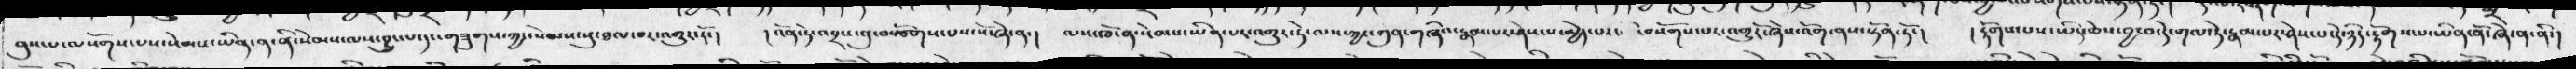བུས་པ་ལསོགས་པས་སེམས་ཡིན་ན་ནི་སེམས་ལས་བྱུང་པ་དང་གཟུགས་ཀྱང་སེམས་སུ་ཐལ་བར་འགྱུར་རོ་།  ། འོན་ཏེ་འབྲས་བུ་བསྩོགས་པས་སོ་ཞེ་ན་།  ལས་ཁོ་ན་སེམས་ཡིན་པར་འགྱུར་ཏེ་ལས་ཀྱང་ཀུན་གཞིའ་རྣམ་པར་ཤེས་པ་མྱེད་པར་  བསོགས་པར་འགྱུརོ་ཞེས་འོག་ནས་སྟོན་ཏོ་།  ། རྟོགས་པས་ཡིད་ཆེས་བྱ་བ་དེ་གལ་ཏེ་རྣམ་པར་ཤེས་པ་དེ་ཉིད་རྟོགས་པ་ཡིན་ནོ་ཞེ་ན་ནི་།
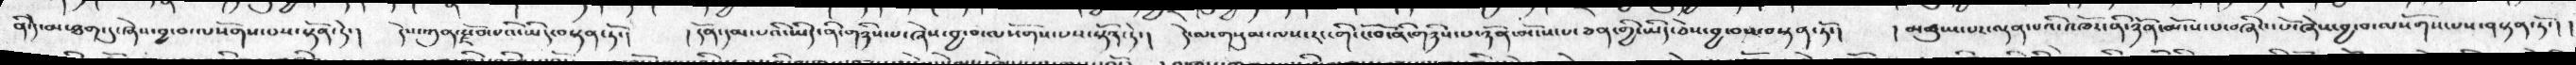ནི་དེ་མ་ཐག་དུ་ཞེས་བྱ་བ་ལསོགས་པས་སྟོན་དེ་།   དེས་ཀུན་རྗོབ་པའི་ཡིད་བསྟན་ཏོ་།   ། དོན་དམ་པའི་ཡིད་ནི་གཉིས་པ་ཞེས་བྱ་བ་ལསོགས་པས་སྟོན་ཏེ་།   དེ་ལ་གསུམ་ལས་རང་གི་ངོ་བོ་ནི་གཉིས་པ་ཉོན་མོངས་པ་ཅན་གྱི་ཡིད་ཅེས་བྱ་བས་བསྟན་ཏོ་།   ། མཚུངས་པར་ལྡན་པའི་འཁོར་ནི་ཉོན་མོངས་པ་བཞིའ་པོ་ཞེས་བྱ་བ་ལསོགས་པས་བསྟན་ཏོ་།  །
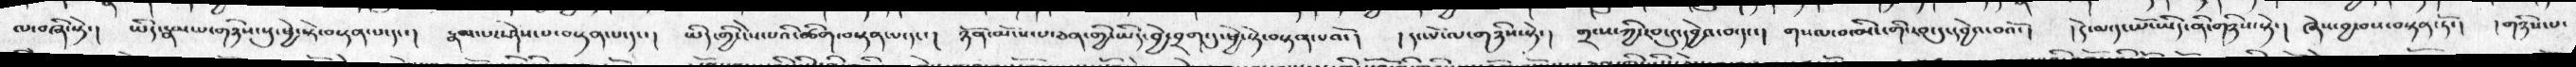ལ་བཞི་སྟེ་།  ཡིད་རྣམ་པ་གཉིས་སུ་ཕྱེ་སྟེ་བསྟན་པ་དང་།   རྣམ་པར་ཤེས་པ་བསྟན་པ་དང་།   ཡིད་གྱི་ངེས་པའི་ཚིག་བསྟན་པ་དང་།  ཉོན་མོངས་པ་ཅན་གྱི་ཡིད་བྱེ་བྲག་དུ་ཕྱེ་སྟེ་བསྟན་པའོ་།   ། དང་པོ་ལ་གཉིས་སྟེ་།  གྲངས་ཀྱི་རབ་དུ་དབྱེའ་བ་དང་།  གསལ་བ་མིང་གི་རབ་དུ་དབྱེའ་བའོ་།   །དེ་ལ་དང་པོ་ཡིད་ནི་གཉིས་སྟེ་།   ཞེས་བྱ་བས་བསྟན་ཏོ་།  །གཉིས་པ་
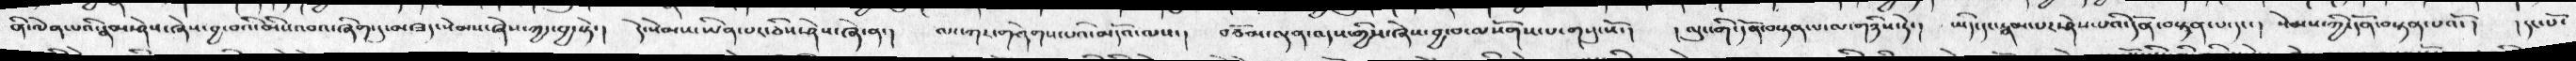ནི་ལེན་པའི་རྣམ་ཤེས་ཞེས་བྱ་བའི་མིང་འབའ་ཞིག་དུ་མ་ཟད་སེམས་ཞེས་ཀྱང་བྱ་སྟེ་།  དེ་སེམས་ཡིན་པར་ཅིས་ཤེས་ཞེ་ན་།  ལང་ཀར་གཤེགས་པའི་མདོའ་ལས་།   བཅོམ་ལྡན་འདས་ཀྱིས་ཞེས་བྱ་བ་ལསོགས་པ་གསུངསོ་།  ། ལུང་གི་དོན་བསྟན་པ་ལ་གཉིས་ཏེ་།  ཡིད་དང་རྣམ་པར་ཤེས་པའི་དོན་བསྟན་པ་དང་།  སེམས་ཀྱི་དོན་བསྟན་པའོ་།    ། དང་པོ་
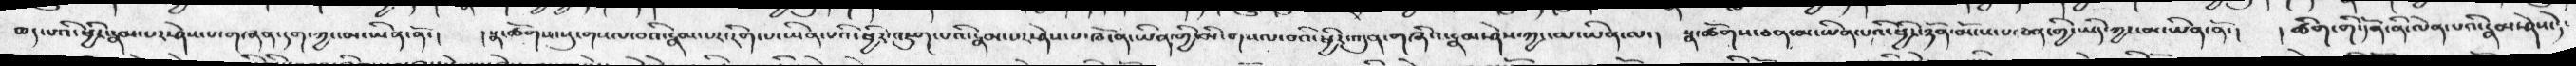ཆད་པའི་ཕྱིར་རྣམ་པར་ཤེས་པ་གཞན་དག་ཀྱང་མ་ཡིན་ནོ་།  ། སྣ་ཚོགས་སུ་གསལ་བའི་རྣམ་པར་རིག་པ་ཡིན་པའི་ཕྱིར་འཇུག་པའི་རྣམ་པར་ཤེས་པ་ཁོ་ན་ཡིན་གྱི་མི་གསལ་བའི་ཕྱིར་ཀུན་གཞིའ་རྣམ་ཤེས་ཀྱང་མ་ཡིན་ལ་།   སྣ་ཚོགསཅན་མ་ཡིན་པའི་ཕྱིར་ཉོན་མོངས་ཅན་གྱི་ཡོད་ཀྱང་མ་ཡིན་ནོ་།  །  ཚིག་གི་དོན་ནི་ལེན་པའི་རྣམ་ཤེས་དེ་
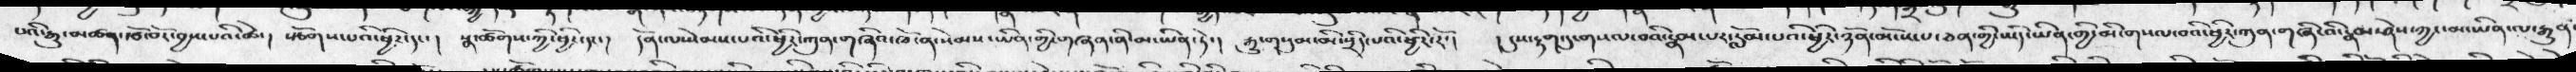པའི་རྒྱུ་མཚན་རྩོ་བོར་བྱས་པའི་ཚེ་།  སྩོགས་པའི་ཕྱིར་དང་།  སྣ་ཚོགས་ཀྱི་ཕྱིར་དང་།  དོན་ལ་སེམས་པའི་ཕྱིརོ་ཀུན་གཞིའ་ཁོ་ན་སེམས་ཡིན་གྱི་གཞན་ནི་མ་ཡིན་ཏེ་།  རྒྱུ་གསུམ་མི་སྲིད་པའི་ཕྱིར་རོ་།  ། དུས་རྟག་དུ་གསལ་བའི་རྣམ་པར་རློམ་པའི་ཕྱིར་ཉོན་མོངས་པ་ཅན་གྱི་ཡིད་ཡིན་གྱི་མི་གསལ་བའི་ཕྱིར་ཀུན་གཞི་འི་རྣམ་ཤེས་ཀྱང་མ་ཡིན་ལ་རྒྱུན་
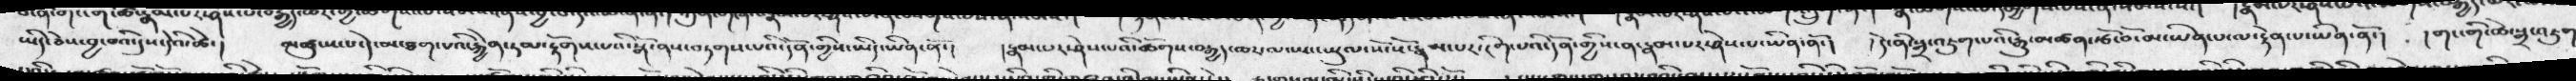ཡིད་ཅེས་བྱ་བའི་དུས་དེའི་ཚེ་།  མཚུངས་པ་དེ་མ་ཐག་པའི་རྐྱེན་ཏམ་རྟོགས་པའི་སྒོ་ནས་བཏགས་པའི་དོན་གྱིས་ཡིད་ཡིན་ནོ་།  ། རྣམ་པར་ཤེས་པའི་ཚོགས་བརྒྱད་ཁར་ལ་སྤང་ཡུལ་སོ་སོ་རྣམ་པར་རིག་པའི་དོན་གྱིས་ན་རྣམ་པར་ཤེས་པ་ཡིན་ནོ་།  ། དེ་ནི་སྒྲ་འཇུག་པའི་རྒྱུ་མཚན་རྩོ་བོ་མ་ཡིན་པ་ལ་རྟེན་པ་ཡིན་ནོ་།  ། གང་གིས་ཚེ་སྒྲ་འཇུག
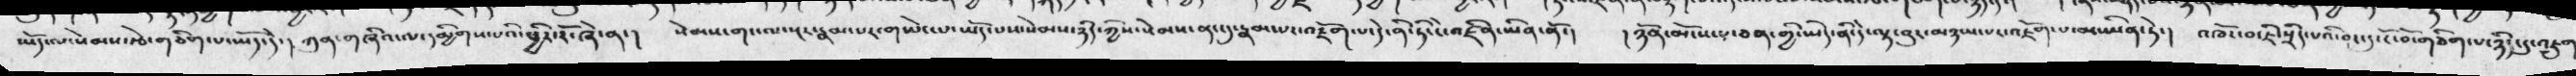ཡོད་པ་སེམས་རྩེ་གཅིག་པ་ཡོད་དེ་།  ཀུན་གཞིའ་ལ་དམྱིགས་པའི་ཕྱིར་རོ་ཞེ་ན་།  སེམས་གང་ལ་སྔར་རྣམ་པར་གཡེང་པ་ཡོད་པས་སེམས་ཉིད་ཀྱིས་སེམས་ནང་དུ་རྣམ་པར་འཇོག་པ་དེ་ནི་ཏིངངེ་འཛིན་ཡིན་ནོ་།  ། ཉོན་མོངས་པ་ཅན་གྱི་ཡིད་ནི་དེ་ལྟ་བུར་མཉམ་པར་འཇོག་པ་མ་ཡིན་ཏེ་།  འཁོར་བ་ཇི་སྲིད་པའི་བང་དུ་ངོ་བོ་གཅིག་པ་ཉིད་དུ་འཇུག
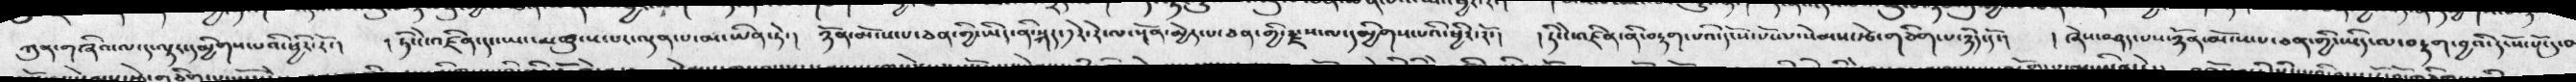ཀུན་གཞིའ་ལ་ད་ལྟར་དམྱིགས་པའི་ཕྱིར་རོ་།  ། ཏེ་ངེ་འཛིན་དང་ཡང་མཚུངས་པར་ལྡན་པ་མ་ཡིན་ཏེ་།  ཉོན་མོངས་པ་ཅན་གྱི་ཡིད་ནི་སྐད་༡་རེ་རེ་ལ་སྔོན་མྱེད་པ་ཅན་གྱི་རྫས་ལ་དམྱིགས་པའི་ཕྱིར་རོ་།  ། ཏི་ངེ་འཛིན་ནི་བརྟག་པའི་དངོས་པོ་ལ་སེམས་རྩེ་གཅིག་པ་ཉིད་དོ་།  ། ཞེས་བཤད་པ་ཉོན་མོངས་པ་ཅན་གྱི་ཡིད་ལ་བརྟག་བྱའི་དངོས་པོ་དུ་བ
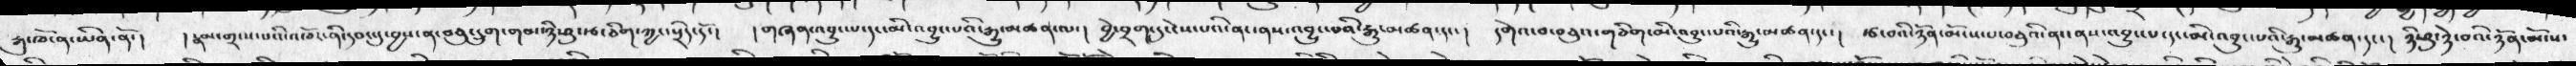རྒུ་ཁོ་ན་ཡིན་ནོ་།  ། རྣམ་གྲངས་པའི་འཁོར་ནི་དབང་དུ་བྱས་ན་བཅུ་དྲུག་གབ་ཉི་ཤུ་རྩ་ཅིག་ཀྱང་སྲིད་དོ་།  ། གཞན་འབྱུང་པ་དང་མི་འབྱུང་པའི་རྒྱུ་མཚན་ལ་།  བྱེ་བྲག་དུ་ངེས་པའི་ནང་ནས་འབྱུང་པའི་རྒྱུ་མཚན་དང་།  དགེའ་བ་བཅུའ་གཅིག་མི་འབྱུང་པའི་རྒྱུ་མཚན་དང་།  རྩ་བའི་ཉོན་མོངས་པ་བཅུའི་ནང་ནས་འབྱུང་པ་དང་མི་འབྱུང་པའི་རྒྱུ་མཚན་དང་།  ཉི་ཤུ་ཉེ་བའི་ཉོན་མོངས་
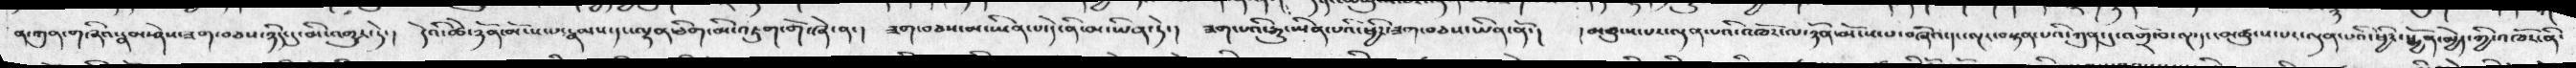ན་ཀུན་གཞིའ་རྣམ་ཤེས་ཟག་བཅས་ཉིད་དུ་མི་འགྲུར་ཏེ་།  དེའི་ཚེ་ཉོན་མོངས་པས་རྣམས་དང་ལྷན་ཅིག་མི་འཇུག་གོ་ཞེ་ན་།  ཟག་བཅས་མ་ཡིན་པ་དེ་ནི་མ་ཡིན་ཏེ་།  ཟག་པའི་རྒྱུ་ཡིན་པའི་ཕྱིར་ཟག་བཅས་ཡིན་ནོ་།   །མཚུངས་པར་ལྡན་པའི་འཁོར་ལ་ཉོན་མོངས་པ་བཞིའ་དང་ལྔར་བསྟན་པའི་ཀུན་དུ་འགྲོ་བ་ལྔ་དང་མཚུངས་པར་ལྡན་པའི་ཕྱིར་སྨྱོན་མྱེད་གྱི་འཁོར་ནི་
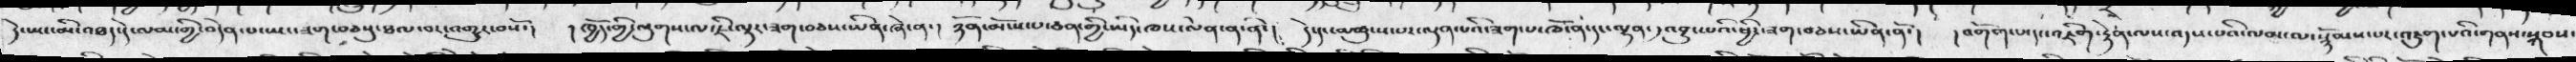དེ་ཡང་མི་འཐད་དེ་ལམ་གྱི་བདེན་པ་ཡང་ཟག་བཅསུ་ཐལ་བར་འགྱུར་བསོ་།  ། ཁྱོད་གྱི་ལུགས་ལ་ཇི་ལྟར་ཟག་བཅས་ཡིན་ཞེ་ན་།  ཉོན་མོངས་པ་ཅན་གྱི་ཡིད་ཁས་ལེན་ན་ནི་།  དེ་དང་མཚུངས་པར་ལྡན་པའི་ཟག་པ་ཁོ་ན་དང་ལྷན་༡འབྱུང་པའི་ཕྱིར་ཟག་བཅས་ཡིན་ནོ་།  ། འགོག་པ་དང་འཇིག་རྟེན་ལས་འདས་པའི་ལམ་ལ་སྙོམས་པར་འཇུག་པའི་གནས་སྐབས་
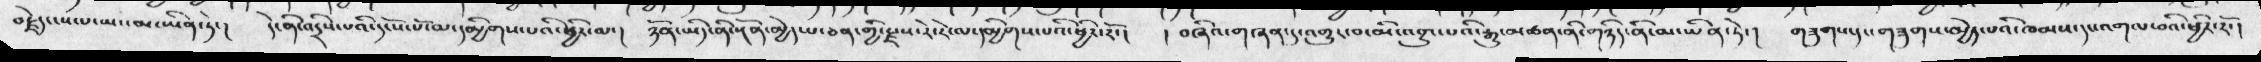བརྗེད་ངས་པ་ཡང་མ་ཡིན་ཏེ་།  དེ་ནི་འདྲིས་པའི་དངོས་པོ་མ་དམྱིགས་པའི་ཕྱིར་ལ་།  ཉོན་ཡིད་ནི་སྔོན་མྱེད་པ་ཅན་གྱི་རྫས་རེ་རེ་ལ་དམྱིགས་པའི་ཕྱིར་རོ་།  ། བཞིའ་གཞན་དུ་འགྱུར་བ་མི་འབྱུང་པའི་རྒྱུ་མཚན་ནི་གཉིད་ནི་མ་ཡིན་ཏེ་།  གཟུགས་དང་གཟུགས་མྱེད་པའི་ཁམས་དང་འགལ་པའི་ཕྱིར་རོ་།
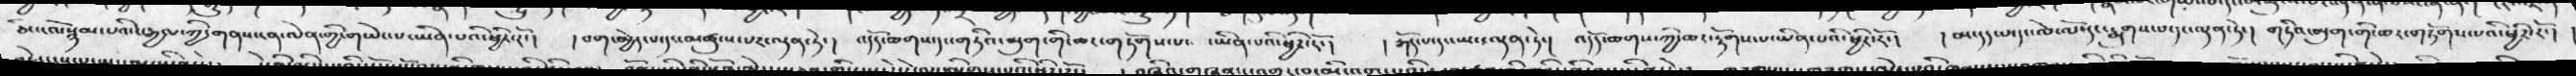ཅེས་ལསྙོམ་པའི་རྒྱལ་ཀྱི་གནས་ངན་ལེན་གྱི་གཡེང་པ་ཡིན་པའི་ཕྱིར་རོ་།  ། བག་མྱེད་པ་དང་མཚུངས་པར་ལྡན་ཏེ་།  འདོད་ཆགས་དང་གཏིིའ་མུག་གི་ཆར་གཏོགས་པ་  ་ཡིན་པའི་ཕྱིར་རོ་།  ། རྒོད་པ་དང་ཡང་ལྡན་ཏེ་།  འདོད་ཆགས་ཀྱི་ཆར་རྟོགས་པ་ཡིན་པའི་ཕྱིར་རོ་།  ། མ་དད་པ་དང་ལེ་ལོ་དང་རྨུགས་པ་དང་ལྡན་ཏེ་།  གཏི་མུག་གི་ཆར་གཏོགས་པའི་ཕྱིར་རོ་།  །
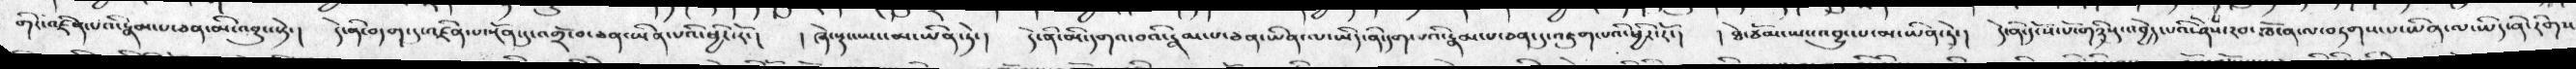གཏི་འཛིན་པའི་རྣམ་པ་ཅན་མི་འབྱུང་སྟེ་།  དེ་ནི་བདག་འཛིན་པ་སྔོན་དུ་འགྲོ་བ་ཅན་ཡིན་པའི་ཕྱིར་རོ་།  ། ཞེ་སྡང་ཡང་མ་ཡིན་ཏེ་།  དེ་ནི་མི་དགའ་བའི་རྣམ་པ་ཅན་ཡིན་ལ་ཡིད་ནི་དག་པའི་རྣམ་པ་ཅན་དུ་འཇུག་པའི་ཕྱིར་རོ་།  ། ཐེ་ཙོམ་ཡང་འབྱུང་པ་མ་ཡིན་ཏེ་།  དེ་ནི་དངོས་པོ་གཉིསུ་འབྱེད་པའི་ཤེས་རབ་ཁོ་ན་ལ་བཏགས་པ་ཡིན་ལ་ཡིད་ནི་རིགས
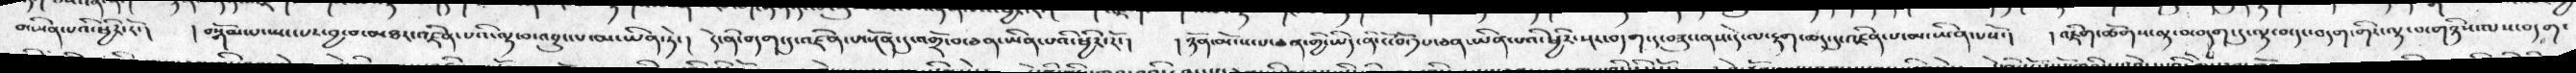གཡེན་པའི་ཕྱིར་རོ་།  ། བསྒོམ་པ་སྤང་པར་བྱ་བ་མཐར་འཛིན་པའི་ལྟ་བ་འབྱུང་པ་མ་ཡིན་ཏེ་།  དེ་ནི་བདག་དུ་འཛིན་པ་སྔོན་དུ་འགྲོ་བ་ཅན་ཡིན་པའི་ཕྱིར་རོ་།  ། ཉོན་མོངས་པ་ཅན་གྱི་ཡིད་ནི་ངོ་བོ་༡པ་ཅན་ཡིན་པའི་ཕྱིར་སྔར་བདག་ད་བཟུང་ནས་དེ་ལ་རྟག་ཆད་དུ་འཛིན་པ་མ་ཡིན་པསོ་།  ། འཇིག་ཚོགས་ལྟ་བ་བདག་དུ་ལྟ་བ་དང་བདག་གི་ལྟ་བ་གཉིས་ལས་བདག་
